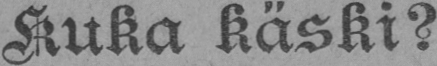Kuka käski?
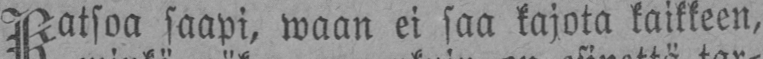Katsoa saapi, waan ei saa kajota kaikkeen,
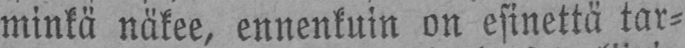minkä näkee, ennenkuin on esinettä tar-
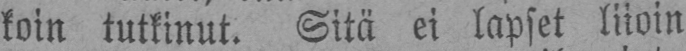koin tutkinut. Sitä ei lapset liioin
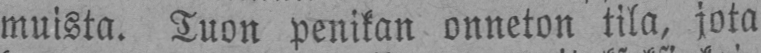muista. Tuon penikan onneton tila, jota
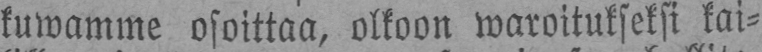kuwamme osoittaa, olkoon waroitukseksi kai-
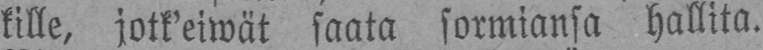kille, jotk'eiwät saata sormiansa hallita.
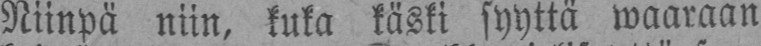Niinpä niin, kuka käski syyttä waaraan
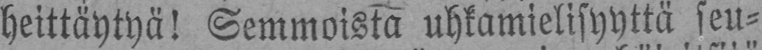heittäytyä! Semmoista uhkamielisyyttä seu-
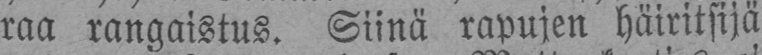raa rangaistus. Siinä rapujen häiritsijä
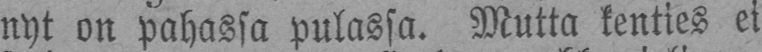nyt on pahassa pulassa. Mutta kenties ei
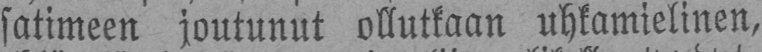satimeen joutunut ollutkaan uhkamielinen,
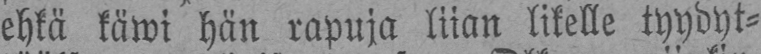ehkä käwi hän rapuja liian likelle tyydyt-
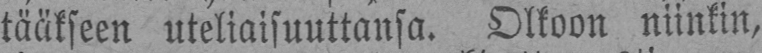tääkseen uteliaisuuttansa. Olkoon niinkin,
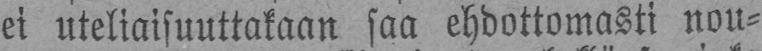ei uteliaisuuttakaan saa ehdottomasti nou-
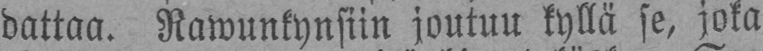dattaa. Rawunkynsiin joutuu kyllä se, joka
